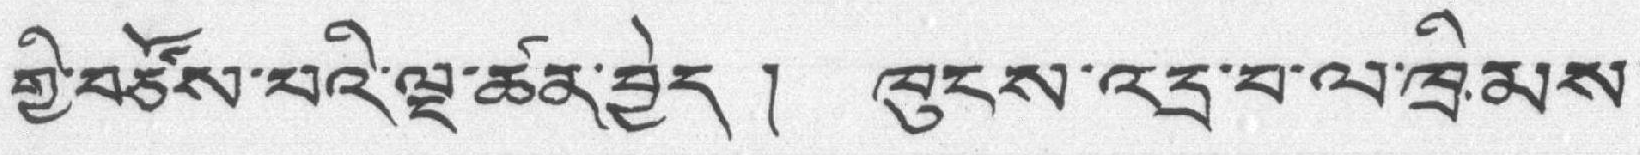གྱི་བཙོས་པའི་ལྔ་ཚན་བྱེད ། ཁུངས་འདྲ་བ་ལ་ཁྲིམས་
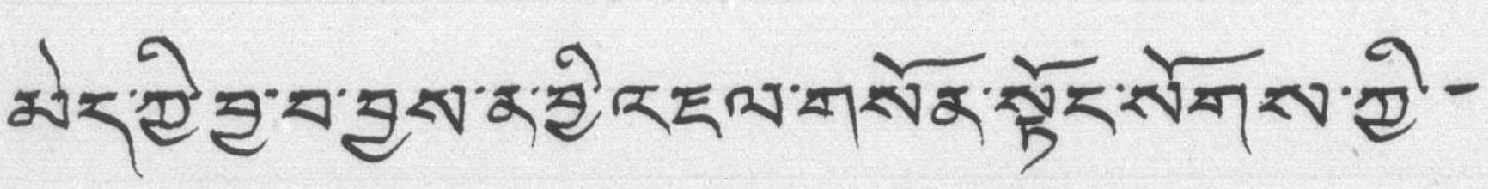མེད་ཀྱི་བྱ་བ་བྱས་ན་བྱི་འཇལ་གསོན་སྟོང་སོགས་ཀྱི་་་
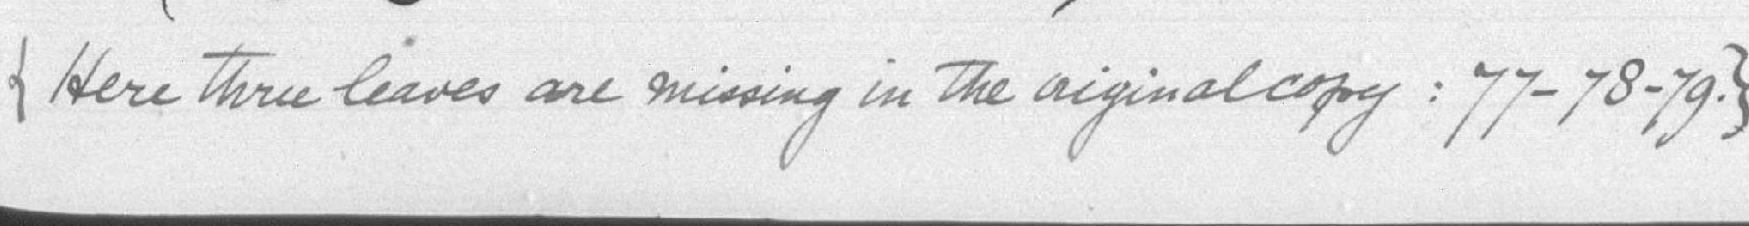{Here three leaves are missing in the original copy : 77–78–79.}
